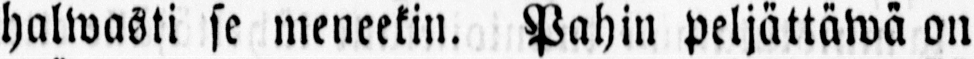halwasti se meneekin. Pahin peljättäwä on
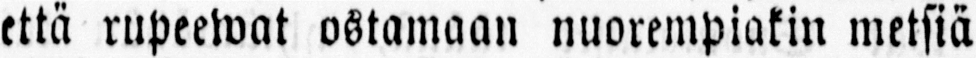että rupeewat ostamaan nuorempiakin metsiä
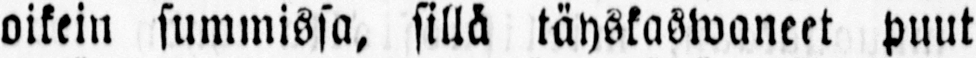oikein summissa, sillä täyskaswaneet puut
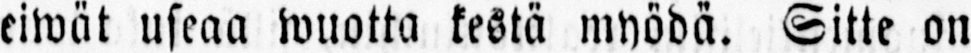eiwät useaa wuotta kestä myödä. Sitte on
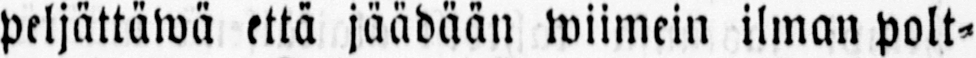peljättäwä että jäädään wiimein ilman polt-
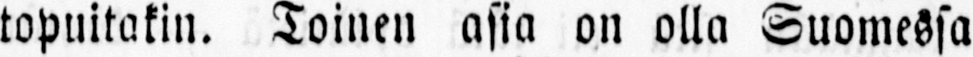topuitakin. Toinen asia on olla Suomessa
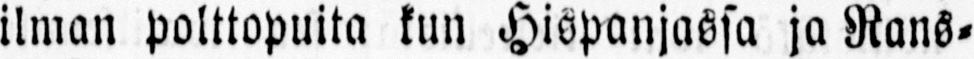ilman polttopuita kun Hispanjassa ja Rans-
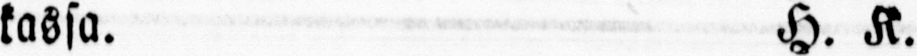kassa. H. K.
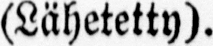(Lähetetty).
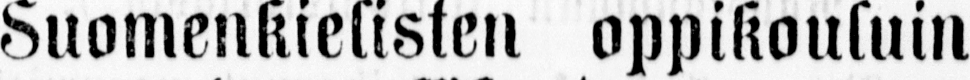Suomenkielisten oppikouluin
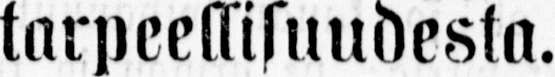tarpeellisuudesta.
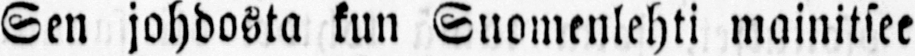Sen johdosta kun Suomenlehti mainitsee
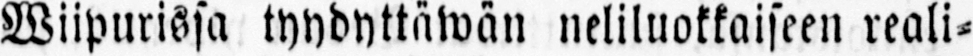Wiipurissa tyydyttäwän neliluokkaiseen reali-
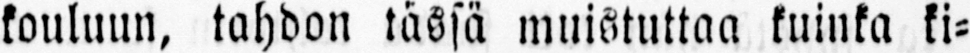kouluun, tahdon tässä muistuttaa kuinka ki-
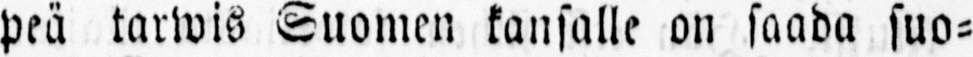peä tarwis Suomen kansalle on saada suo-
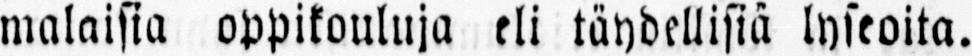malaisia oppikouluja eli täydellisiä lyseoita.
